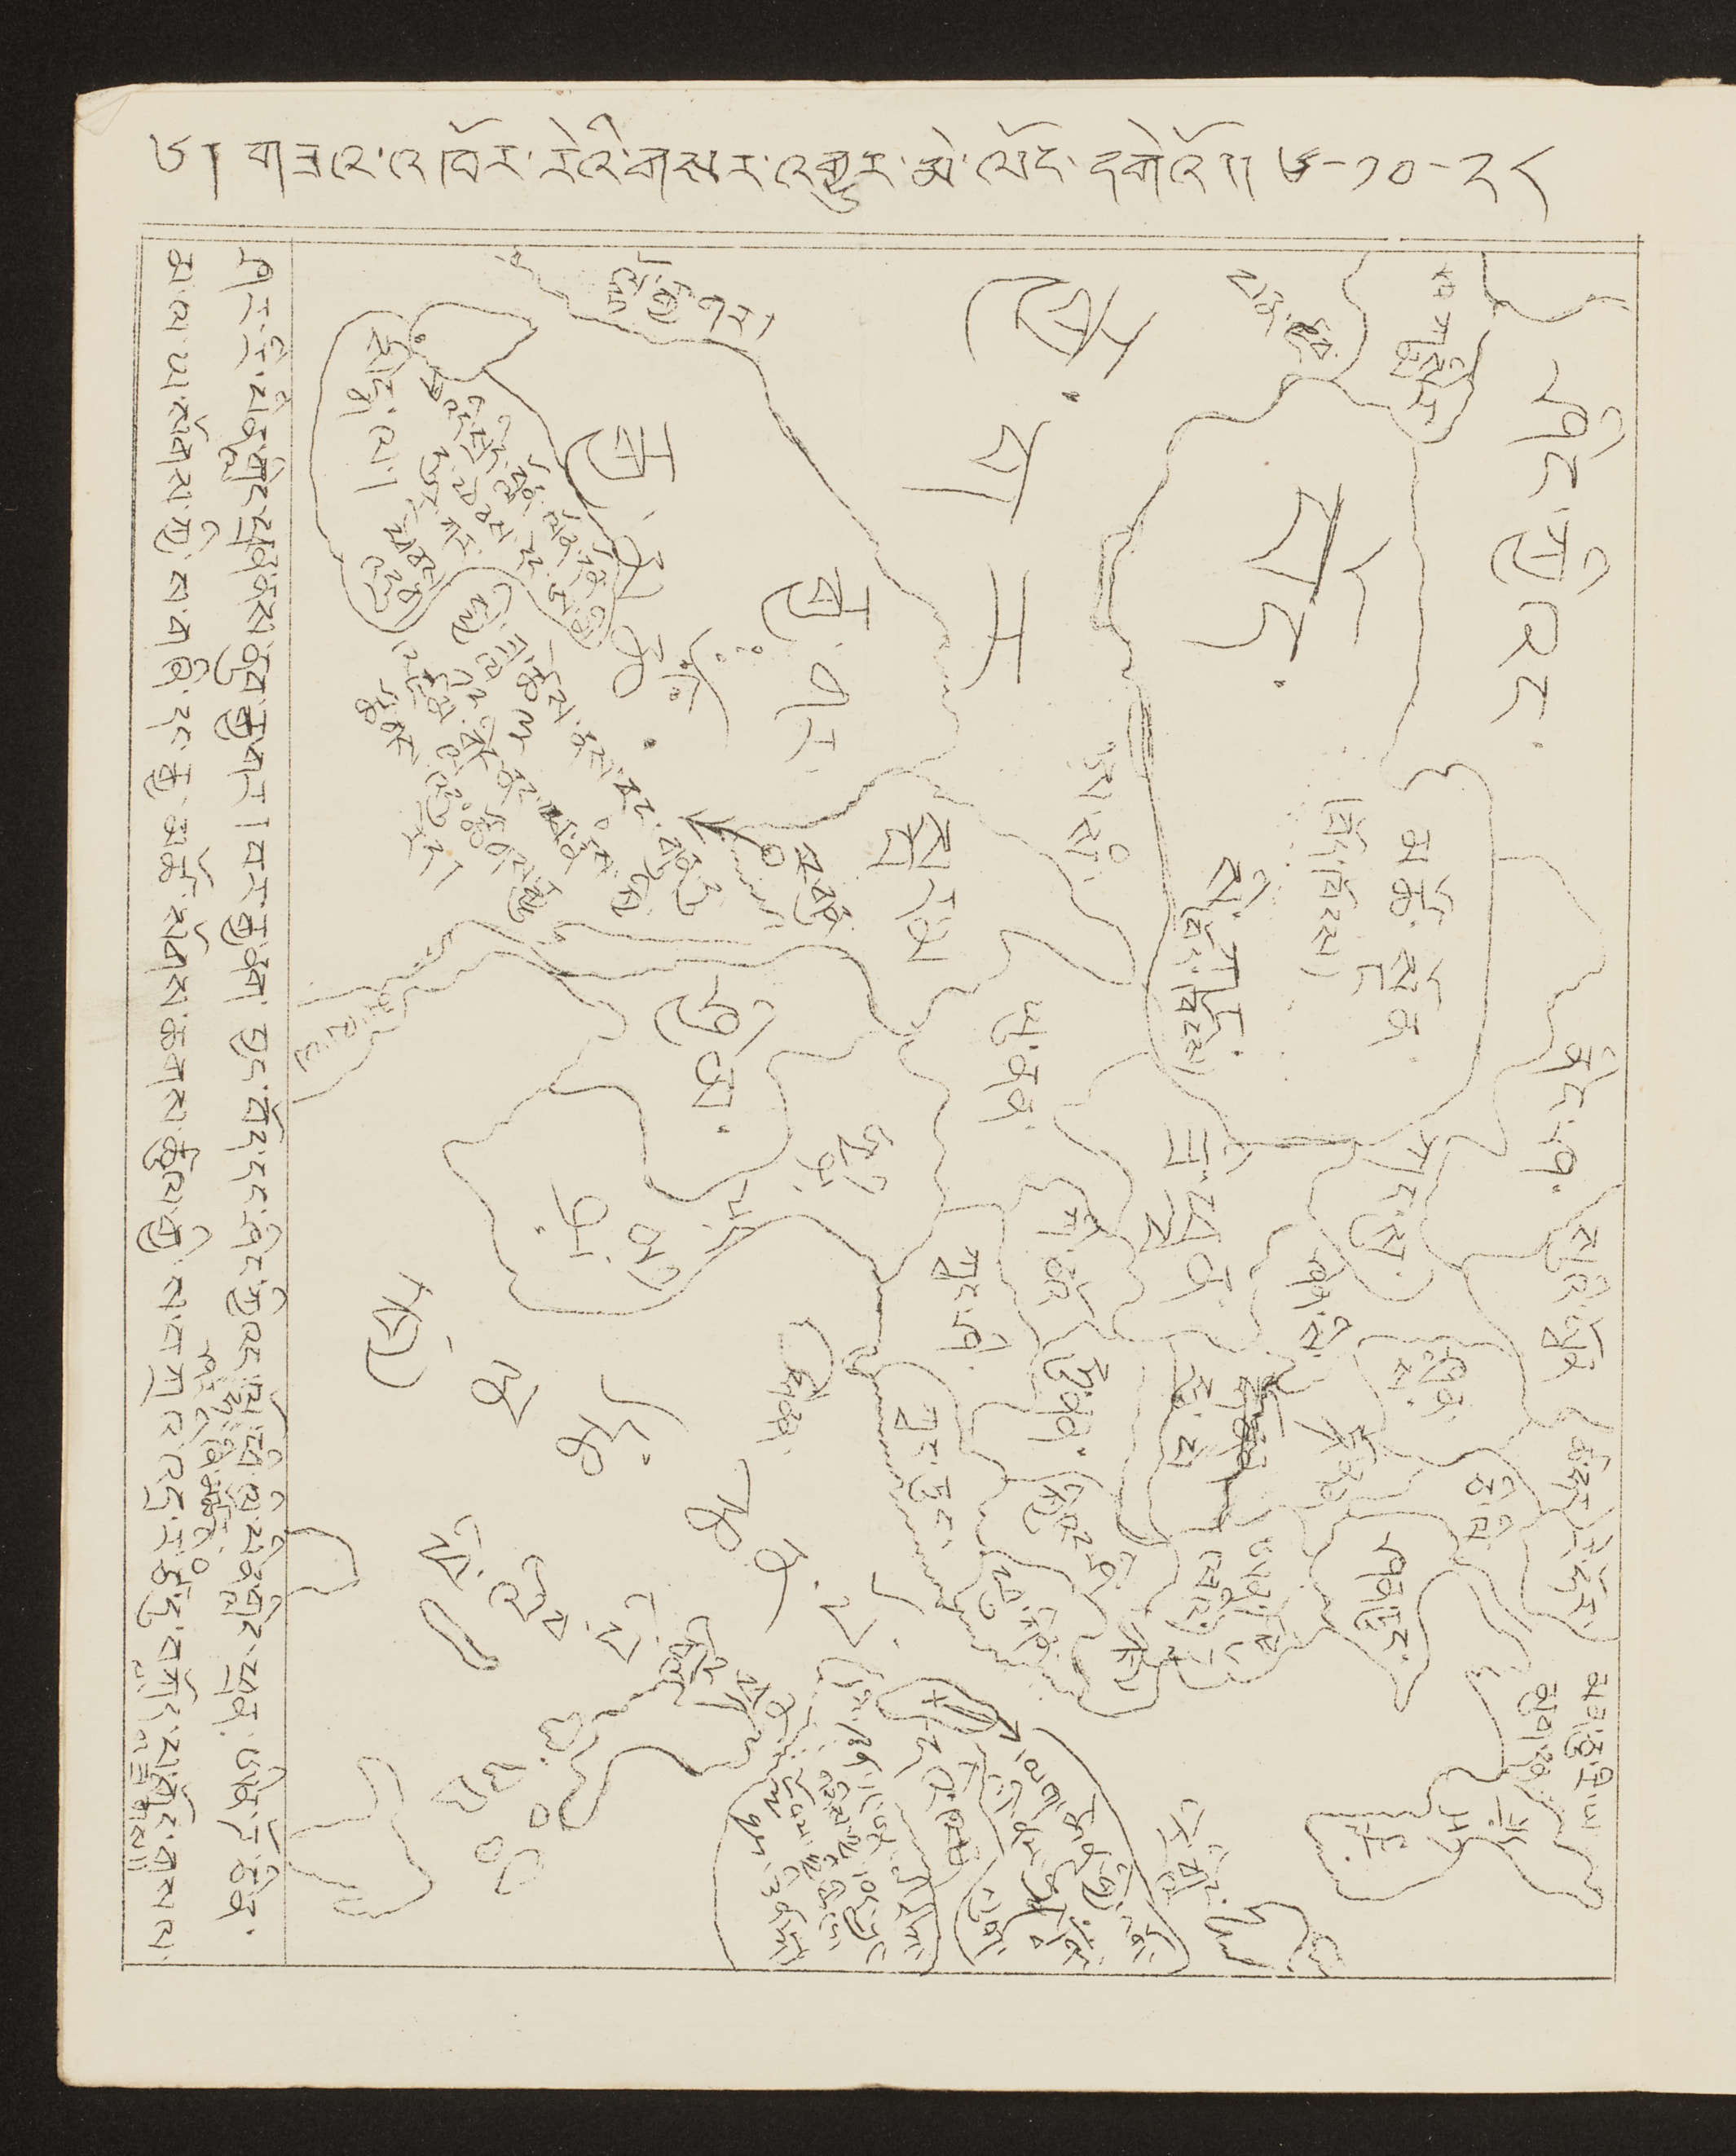༦། གཟའ་འཁོར་རེའི་གསར་འགྱུར་མེ་ལོང་དགེའོ།། ༦-༡༠-༢༨
ཤར་རི་པིན་གླིང་ཕྲན་ནས་ནུབ་རྒྱ་གར། བར་རྒྱ་ནག་བྱང་བོད་དང་ཤིང་ཀྱི་
ཤར་
ལྷོ་
ཞི་མཚོར་
ཕི་ལི་པིན་གླིང་ཕྲན་ཨིན་ཌོ་ཅིན་
མ་ལ་ཡ་སོགས་ཀྱི་ས་གཞི་དང་རྒྱ་མཚོ་སོགས་ཆགས་ཚུལ་གྱི་ས་བཀྲིའི་འདྲ་རི་ཙ་དུ་བཀོད་པ་གོང་གསལ་
ལ་གཟིགས།།
ཤིང་ཀྱིའང་
ནིང་ཤ་
སུའི་སྭོན་
ཚ་ཧར
རེ་ཧར
མན་ཅུ་རི་ཡ
མུག་དན་
འཀསྨིར་
པན་རྫབ་
བོད་
མཚོ་སྔོན་
(ཟོད་ཁོངས)
སི་ཀང་
(བོད་ཁོངས)
ཀང་སུ་
ཤན་
ས་
ཅི་ལི་
ཤན་ཏུང་
ཀོ་རོ་ཡྰ་
ཤེན་སི་
ཏོ་ནན་
ཧོ་ནན་
ཧུ་པེ་
ཨན་།
ལའི་)རྰ
ཟི་ཕྲྭན་
རྒྱ་གར
ཨ་སཾ་
ཡུ་ནན་
ཀི་ཅའོ་
ཧུ་ནན་
ཀྱིའང་ཤི་
སྐྱ་
ཕུ་ཀིན་
ཀྭང་ཤི་
ཀྭང་ཏུང་
རི་ཀླིང་
སྦར་མ
རང་གུན་
སྤྱི་ཟླ་
༡༢
ཚེས་
༣
ནས་དང་གུན་དུ་
འཛམ་གླིང་ནང་པ་རྣཾས་ཀྱི་
ཚོགས་འདུ་ཚོགས་རྒྱུ་
རེད།
རྒྱ་གར་
རྒྱ་མཚོ་
སིངྒ་ལ་།
འདི་སྲིད་བློན་ལོན་དོན་
དུ་ཕེབས་དེང་ཨ་མི་
རི་ཀར་
ཕེབས
འདུག
ལྷོ་རྒྱ་གར་།
ཤྱིམ་
ཨིན་ཌོ་ཅི་ན་
མ་ལ་ཡ
ཧ་ནན་
རྒྱ་མཚོ་ཆེན་པོ་
ཕི་ལིབ་པི་གླིང་ཕྲན
དའི་ཝན་དང་ཨ་མི་རི་ཀ་
གཉིས་ཀྱི་དབར་སྲུང་
སྐྱོབས་ཀྱི་ཆིངས་
བྱས་ཉིན་སྐོར།
དའི་ཝན་
དམག་ཆེན་གྱི་འགོ་
འདི་ནས་ཚུཌ་དགོས་
འདུག་
